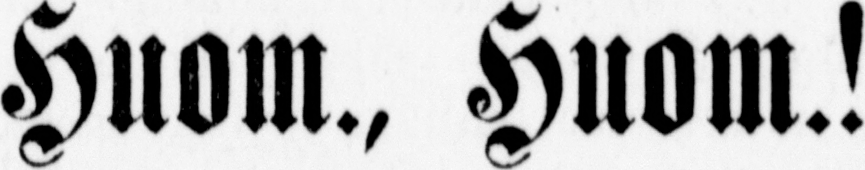Huom., Huom.!
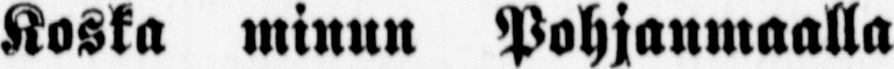Koska minun Pohjanmaalla
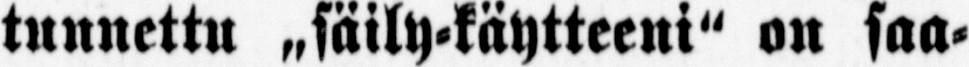tunnettu „säily-käytteeni" on saa-
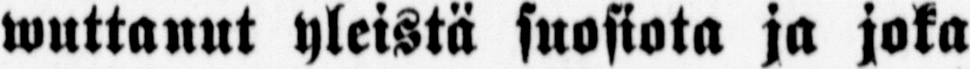wuttanut yleistä suosiota ja joka
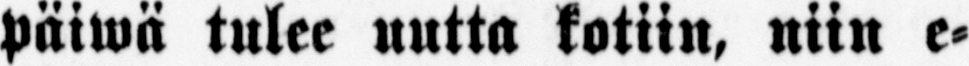päiwä tulee uutta kotiin, niin e-
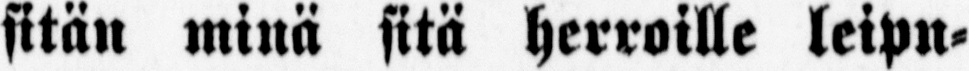sitän minä sitä herroille leipu-
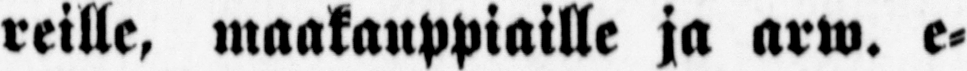reille, maakauppiaille ja arw. e-
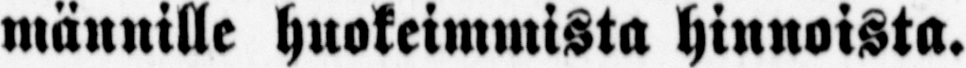männille huokeimmista hinnoista.
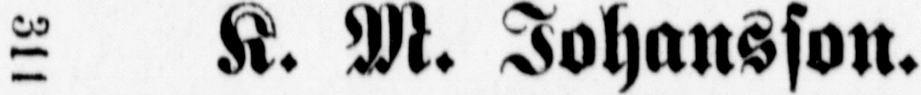311 K. M. Johansson.
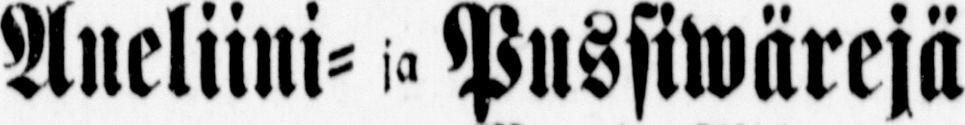Aneliini- ja Pussiwärejä
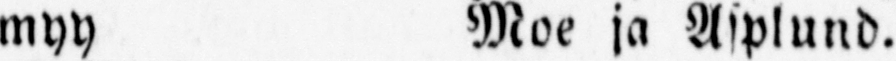myy Moe ja Asplund.
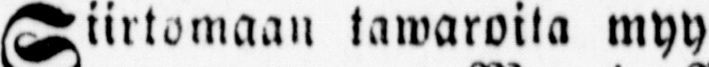Siirtomaan tawaroita myy
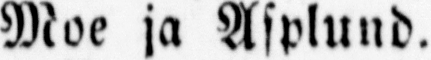Moe ja Asplund,
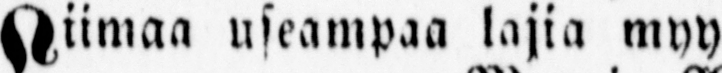Liimaa useampaa lajia myy
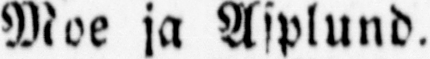Moe ja Asplund.
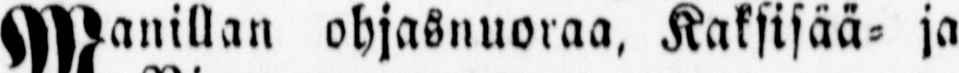Manillan ohjasnuoraa, Kaksisää- ja
